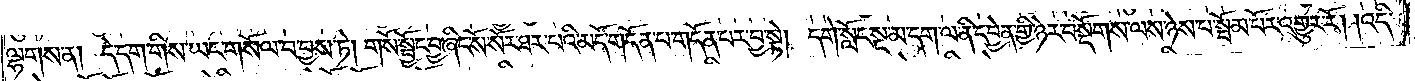ལྷགས་ན། དེ་དག་གིས་ཡང་གསོལ་བ་བྱས་ཏེ། གསོ་སྦྱོང་བྱ་ཞིང་སོ་སོར་ཐར་པའི་མདོ་གདོན་པ་གདོན་པར་བྱ་སྟེ། དགེ་སློང་སྔ་མ་དག་ལ་ནི་དབྱེན་གྱི་ཉེར་བསྡོགས་ལས་ཉེས་པ་སྦོམ་པོར་འགྱུར་རོ། །འདི་
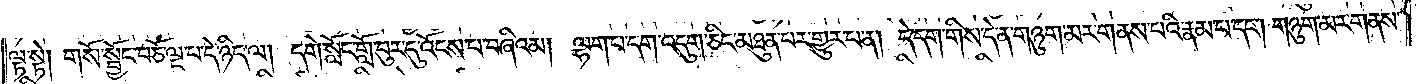ལྟ་སྟེ། གསོ་སྦྱོང་བཅོ་ལྔ་པ་དེ་ཉིད་ལ། དགེ་སློང་གློ་བུར་དུ་འོངས་པ་བཞིའམ། ལྷག་པ་དག་འདུག་ཅིང་མཐུན་པར་གྱུར་པ་ན། དེ་དག་གིས་དེ་ན་གཉུག་མར་གནས་པའི་རྣམ་པ་དང༌། གཉུག་མར་གནས་
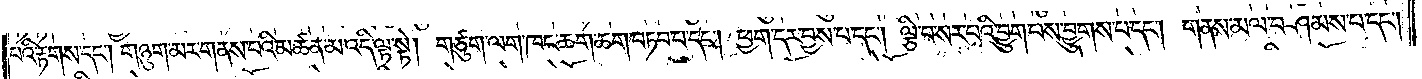པའི་རྟགས་དང༌། གཉུག་མར་གནས་པའི་མཚན་མ་འདི་ལྟ་སྟེ། གཙུག་ལག་ཁང་ཆག་ཆག་བཏབ་པ་དང༌། ཕྱག་དར་བྱས་པ་དང༌། ལྕི་བ་སར་པའི་བྱུག་པས་བྱུགས་པ་དང༌། གནས་མལ་བཤམས་པ་དང༌།
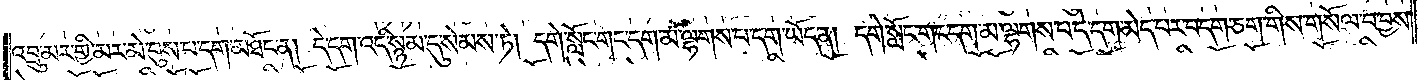འབྲུ་མར་གྱི་མར་མེ་བུས་པ་དག་མཐོང་ན། དེ་དག་འདི་སྙམ་དུ་སེམས་ཏེ། དགེ་སློང་གང་དག་མ་ལྷགས་པ་དག་ཡོད་ན། དགེ་སློང་གང་དག་མ་ལྷགས་པ་དེ་དག་མེད་པར་བདག་ཅག་གིས་གསོལ་བ་བྱས་
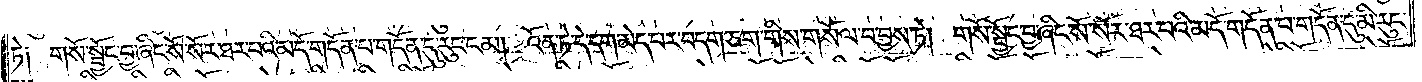ཏེ༑ གསོ་སྦྱོང་བྱ་ཞིང་སོ་སོར་ཐར་པའི་མདོ་གདོན་པ་གདོན་དུ་རུང་ངམ། འོན་ཏེ་དེ་དག་མེད་པར་བདག་ཅག་གིས་གསོལ་བ་བྱས་ཏེ། གསོ་སྦྱོང་བྱ་ཞིང་སོ་སོར་ཐར་པའི་མདོ་གདོན་པ་གདོན་དུ་མི་རུང་
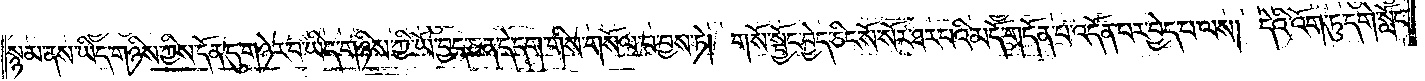སྙམ་ནས་ཡིད་གཉིས་ཀྱིས་དོན་དུ་གཉེར་བ་ཡིད་གཉིས་ཀྱི་ཡོ་བྱད་ཅན་དེ་དག་གིས་གསོལ་བ་བྱས་ཏེ། གསོ་སྦྱོང་བྱེད་ཅིང་སོ་སོར་ཐར་པའི་མདོ་གདོན་པ་འདོན་པར་བྱེད་པ་ལས། དེའི་འོག་ཏུ་དགེ་སློང་
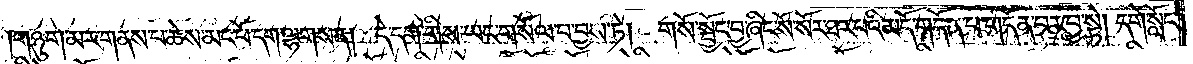གཉུག་མར་གནས་པ་ཆེས་མང་པོ་དག་ལྷགས་ན། དེ་དག་གིས་ཡང་གསོལ་བ་བྱས་ཏེ། གསོ་སྦྱོང་བྱ་ཞིང་སོ་སོར་ཐར་པའི་མདོ་གདོན་པ་གདོན་པར་བྱ་སྟེ། དགེ་སློང་
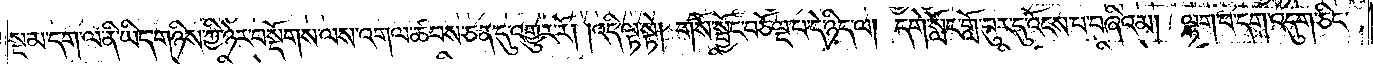སྔ་མ་དག་ལ་ནི་ཡིད་གཉིས་ཀྱི་ཉེར་བསྡོགས་ལས་འགལ་ཚབས་ཅན་དུ་འགྱུར་རོ། །འདི་ལྟ་སྟེ། གསོ་སྦྱོང་བཅོ་ལྔ་པ་དེ་ཉིད་ལ། དགེ་སློང་གློ་བུར་དུ་འོངས་པ་བཞིའམ། ལྷག་པ་དག་འདུག་ཅིང་
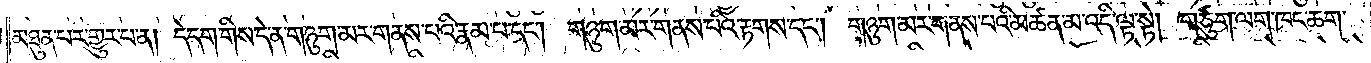མཐུན་པར་གྱུར་པ་ན། དེ་དག་གིས་དེ་ན་གཉུག་མར་གནས་པའི་རྣམ་པ་དང༌། གཉུག་མར་གནས་པའི་རྟགས་དང༌། གཉུག་མར་གནས་པའི་མཚན་མ་འདི་ལྟ་སྟེ། གཙུག་ལག་ཁང་ཆག་
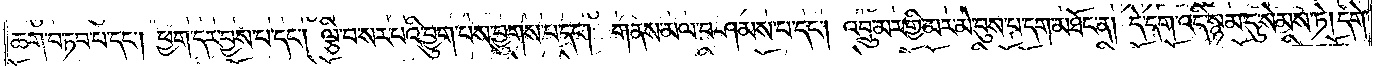ཆག་བཏབ་པ་དང༌། ཕྱག་དར་བྱས་པ་དང༌། ལྕི་བ་སར་པའི་བྱུག་པས་བྱུགས་པ་དང༌། གནས་མལ་བཤམས་པ་དང༌། འབྲུ་མར་གྱི་མར་མ་བུས་པ་དག་མཐོང་ན། དེ་དག་འདི་སྙམ་དུ་སེམས་ཏེ། དགེ་
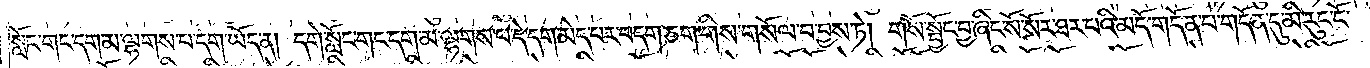སློང་གང་དག་མ་ལྷགས་པ་དག་ཡོད་ན། དགེ་སློང་གང་དག་མ་ལྷགས་པ་དེ་དག་མེད་པར་བདག་ཅག་གིས་གསོལ་བ་བྱས་ཏེ། གསོ་སྦྱོང་བྱ་ཞིང་སོ་སོར་ཐར་པའི་མདོ་གདོན་པ་གདོན་དུ་མི་རུང་ངོ་
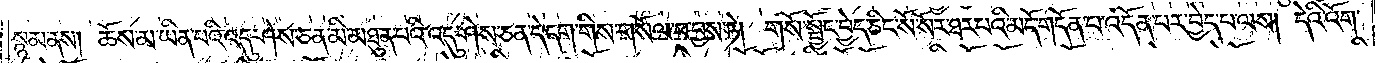སྙམ་ནས། ཆོས་མ་ཡིན་པའི་འདུ་ཤེས་ཅན་མི་མཐུན་པའི་འདུས་ཤེས་ཅན་དེ་དག་གིས་གསོལ་བ་བྱས་ཏེ། གསོ་སྦྱོང་བྱེད་ཅིང་སོ་སོར་ཐར་པའི་མདོ་གདོན་པར་འདོན་པར་བྱེད་པ་ལས། དེའི་འོག་
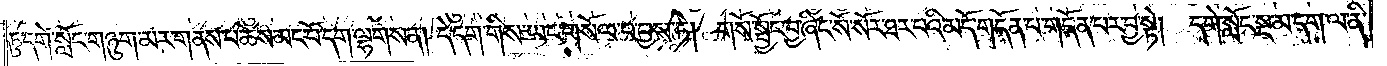ཏུ་དགེ་སློང་གཉུག་མར་གནས་པ་ཆེས་མང་པོ་དག་ལྷགས་ན། དེ་དག་གིས་ཡང་གསོལ་བ་བྱས་ཏེ། གསོ་སྦྱོང་བྱ་ཞིང་སོ་སོར་ཐར་པའི་མདོ་གདོན་པ་གདོན་པར་བྱ་སྟེ། དགེ་སློང་སྔ་མ་དག་ལ་ནི་
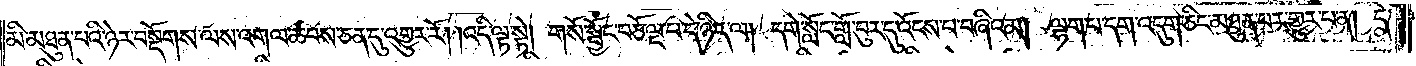མི་མཐུན་པའི་ཉེར་བསྡོགས་ལས་འགལ་ཚབས་ཅན་དུ་འགྱུར་རོ། །འདི་ལྟ་སྟེ། གསོ་སྦྱོང་བཅོ་ལྔ་པ་དེ་ཉིད་ལ། དགེ་སློང་གློ་བུར་དུ་འོངས་པ་བཞིའམ། ལྷག་པ་དག་འདུག་ཅིང་མཐུན་པར་གྱུར་པ་ན། དེ་
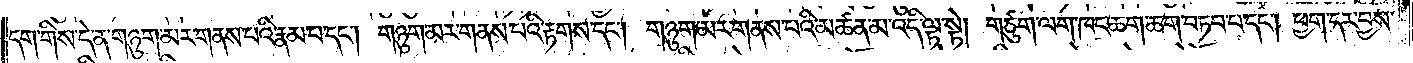དག་གིས་དེ་ན་གཉུག་མར་གནས་པའི་རྣམ་པ་དང༌། གཉུག་མར་གནས་པའི་རྟགས་དང༌། གཉུག་མར་གནས་པའི་མཚན་མ་འདི་ལྟ་སྟེ། གཙུག་ལག་ཁང་ཆག་ཆག་བཏབ་པ་དང༌། ཕྱག་དར་བྱས་
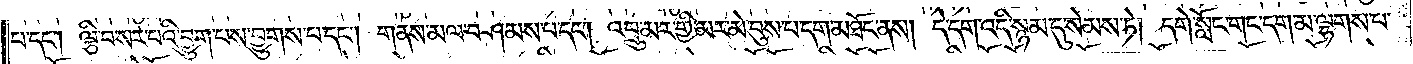པ་དང༌། ལྕི་བ་སར་པའི་བྱུག་པས་བྱུགས་པ་དང༌། གནས་མལ་བཤམས་པ་དང༌། འབྲུ་མར་གྱི་མར་མེ་བུས་པ་དག་མཐོང་ནས། དེ་དག་འདི་སྙམ་དུ་སེམས་ཏེ། དགེ་སློང་གང་དག་མ་ལྷགས་པ་
